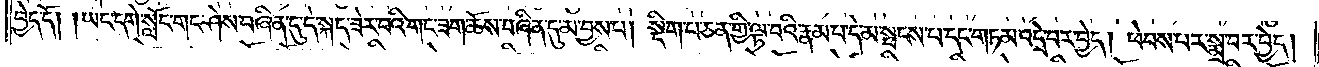བྱེད་དོ། །ཡང་དགེ་སློང་གང་ཤེས་བཞིན་དུ་དེ་སྐད་ཟེར་བའི་གང་ཟག་ཆོས་བཞིན་དུ་མ་བྱས་པ། སྡིག་པ་ཅན་གྱི་ལྟ་བའི་རྣམ་པ་དེ་མ་སྤངས་པ་དང་གཏམ་འདྲེ་བར་བྱེད། ཕེབས་པར་སྨྲ་བར་བྱེད།
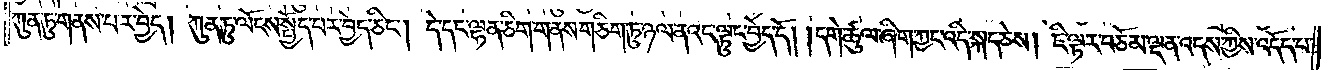ཀུན་ཏུ་གནས་པར་བྱེད། ཀུན་ཏུ་ལོངས་སྤྱོད་པར་བྱེད་ཅིང༌། དེ་དང་ལྷན་ཅིག་གནས་གཅིག་ཏུ་ཉལ་ནའང་ལྟུང་བྱེད་དོ། །དགེ་ཚུལ་ཞིག་ཀྱང་འདི་སྐད་ཅེས། ཇི་ལྟར་བཅོམ་ལྡན་འདས་ཀྱིས་འདོད་པ་
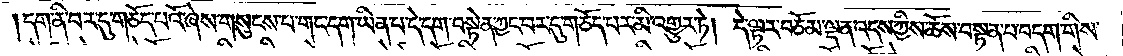དག་ནི་བར་དུ་གཅོད་པའོ་ཞེས་གསུངས་པ་གང་དག་ཡིན་པ་དེ་དག་བསྟེན་ཀྱང་བར་དུ་གཅོད་པར་མི་འགྱུར་ཏེ། དེ་ལྟར་བཅོམ་ལྡན་འདས་ཀྱིས་ཆོས་བསྟན་པ་བདག་གིས་
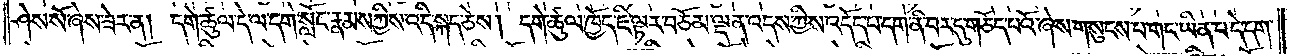ཤེས་སོ་ཞེས་ཟེར་ན། དགེ་ཚུལ་དེ་ལ་དགེ་སློང་རྣམས་ཀྱིས་འདི་སྐད་ཅེས། དགེ་ཚུལ་ཁྱོད་ཇི་ལྟར་བཅོམ་ལྡན་འདས་ཀྱིས་འདོད་པ་དག་ནི་བར་དུ་གཅོད་པའོ་ཞེས་གསུངས་པ་གང་ཡིན་པ་དེ་དག་
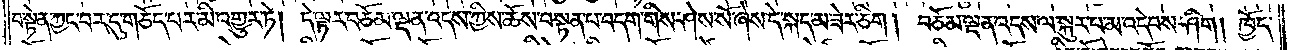བསྟེན་ཀྱང་བར་དུ་གཅོད་པར་མི་འགྱུར་ཏེ། དེ་ལྟར་བཅོམ་ལྡན་འདས་ཀྱིས་ཆོས་བསྟན་པ་བདག་གིས་ཤེས་སོ་ཞེས་དེ་སྐད་མ་ཟེར་ཅིག། བཅོམ་ལྡན་འདས་ལ་སྐུར་པ་མ་འདེབས་ཤིག། ཁྱོད་
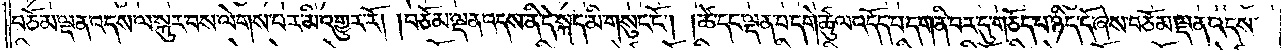བཅོམ་ལྡན་འདས་ལ་སྐུར་བས་ལེགས་པར་མི་འགྱུར་རོ། །བཅོམ་ལྡན་འདས་ནི་དེ་སྐད་མི་གསུང་ངོ༌། །ཚེ་དང་ལྡན་པ་དགེ་ཚུལ་འདོད་པ་དག་ནི་བར་དུ་གཅོད་པ་ཉིད་དོ་ཞེས་བཅོམ་ལྡན་འདས་
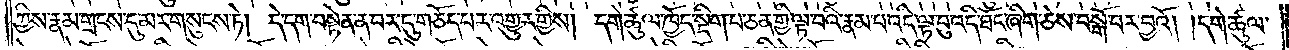ཀྱིས་རྣམ་གྲངས་དུ་མར་གསུངས་ཏེ། དེ་དག་བསྟེན་ན་བར་དུ་གཅོད་པར་འགྱུར་གྱིས། དགེ་ཚུལ་ཁྱོད་སྡིག་པ་ཅན་གྱི་ལྟ་བའི་རྣམ་པ་འདི་ལྟ་བུ་འདི་ཐོང་ཞིག་ཅེས་བསྒོ་བར་བྱའོ། །དགེ་ཚུལ་
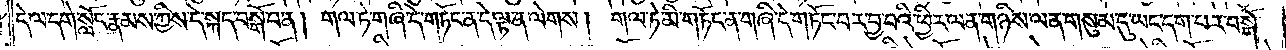དེ་ལ་དགེ་སློང་རྣམས་ཀྱིས་དེ་སྐད་བསྒོ་བ་ན། གལ་ཏེ་གཞི་དེ་གཏོང་ན་དེ་ལྟ་ན་ལེགས། གལ་ཏེ་མི་གཏོང་ན་གཞི་དེ་གཏོང་བར་བྱ་བའི་ཕྱིར་ལན་གཉིས་ལན་གསུམ་དུ་ཡང་དག་པར་བསྒོ་
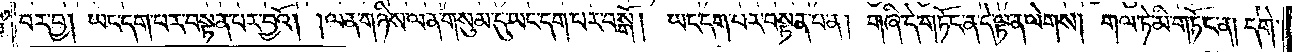བར་བྱ། ཡང་དག་པར་བསྟན་པར་བྱའོ། །ལན་གཉིས་ལན་གསུམ་དུ་ཡང་དག་པར་བསྒོ། ཡང་དག་པར་བསྟན་པ་ན། གཞི་དེ་གཏོང་ན་དེ་ལྟ་ན་ལེགས། གལ་ཏེ་མི་གཏོང་ན། དགེ་
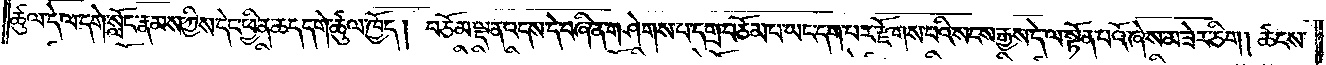ཚུལ་དེ་ལ་དགེ་སློང་རྣམས་ཀྱིས་དེང་ཕྱིན་ཆད་དགེ་ཚུལ་ཁྱོད། བཅོམ་ལྡན་འདས་དེ་བཞིན་གཤེགས་པ་དགྲ་བཅོམ་པ་ཡང་དག་པར་རྫོགས་པའི་སངས་རྒྱས་དེ་ལ་སྟོན་པའོ་ཞེས་མ་ཟེར་ཅིག། ཚངས་
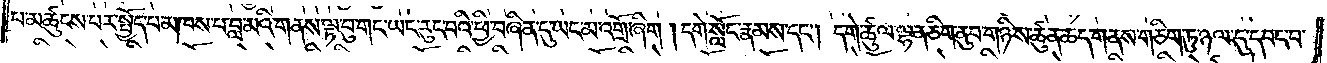པ་མཚུངས་པར་སྤྱོད་པ་མཁས་པ་བླ་མའི་གནས་ལྟ་བུ་གང་ཡང་རུང་བའི་ཕྱི་བཞིན་དུ་ཡང་མ་འགྲོ་ཞིག །དགེ་སློང་རྣམས་དང༌། དགེ་ཚུལ་ལྷན་ཅིག་ནུབ་གཉིས་ཚུན་ཆད་གནས་གཅིག་ཏུ་ཉལ་དུ་དབང་བ་
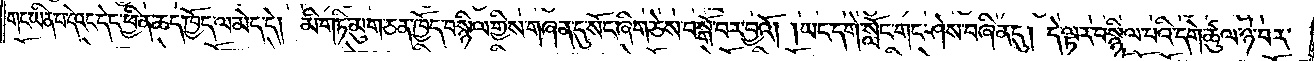གང་ཡིན་པ་དེའང་དེང་ཕྱིན་ཆད་ཁྱོད་ལ་མེད་དེ། མི་གཏི་མུག་ཅན་ཁྱོད་བསྙིལ་གྱིས་གཞན་དུ་སོང་ཞིག་ཅེས་བསྒོ་བར་བྱའོ། །ཡང་དགེ་སློང་གང་ཤེས་བཞིན་དུ། དེ་ལྟར་བསྙིལ་བའི་དགེ་ཚུལ་ཉེ་བར་
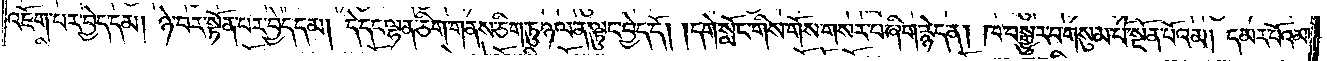འཇོག་པར་བྱེད་དམ། ཉེ་བར་སྟོན་པར་བྱེད་དམ། དེ་དང་ལྷན་ཅིག་གནས་ཅིག་ཏུ་ཉལ་ན་ལྟུང་བྱེད་དོ། །དགེ་སློང་གིས་གོས་གསར་པ་ཞིག་རྙེད་ན། ཁ་བསྒྱུར་བ་གསུམ་པོ་སྔོན་པོའམ། དམར་པོའམ།
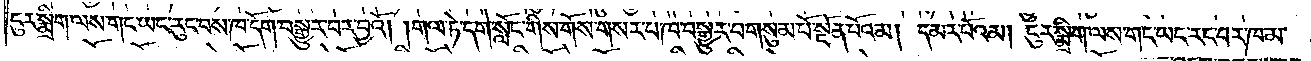ངུར་སྨྲིག་ལས་གང་ཡང་རུང་བས་ཁ་དོག་བསྒྱུར་བར་བྱའོ། །གལ་ཏེ་དགེ་སློང་གིས་གོས་གསར་པ་ཁ་བསྒྱུར་བ་གསུམ་པོ་སྔོན་པོའམ། དམར་པོའམ། ངུར་སྨྲིག་ལས་གང་ཡང་རུང་བར་ཁ་མ་
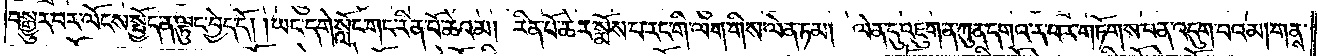བསྒྱུར་བར་ལོངས་སྤྱོད་ན་ལྟུང་བྱེད་དོ། །ཡང་དགེ་སློང་གང་རིན་པོ་ཆེའམ། རིན་པོ་ཆེར་སྨོས་པ་རང་གི་ལག་གིས་ལེན་ཏམ། ལེན་དུ་འཇུག་ན་ཀུན་དགའ་ར་བར་གཏོགས་པ་ན་འདུག་པའམ། གནས་
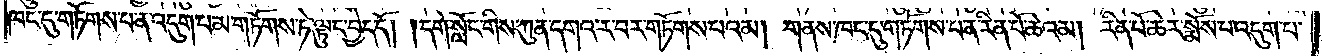ཁང་དུ་གཏོགས་པ་ན་འདུག་པ་མ་གཏོགས་ཏེ་ལྟུང་བྱེད་དོ། །དགེ་སློང་གིས་ཀུན་དགའ་ར་བར་གཏོགས་པའམ། གནས་ཁང་དུ་གཏོགས་པ་ན་རིན་པོ་ཆེའམ། རིན་པོ་ཆེར་སྨོས་པ་འདུག་པ་
